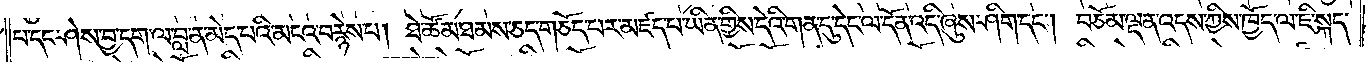པ་དང་ཤེས་བྱ་དག་ལ་བླ་ན་མེད་པའི་མངའ་བརྙེས་པ། ཐེ་ཚོམ་ཐམས་ཅད་གཅོད་པར་མཛད་པ་ཡིན་གྱིས་དེའི་གན་དུ་དེང་ལ་དོན་འདི་ཞུས་ཤིག་དང༌། བཅོམ་ལྡན་འདས་ཀྱིས་ཁྱོད་ལ་ཇི་སྐད་
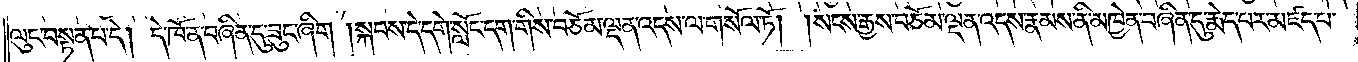ལུང་བསྟན་པ་དེ། དེ་ཁོ་ན་བཞིན་དུ་ཟུང་ཞིག །སྐབས་དེ་དགེ་སློང་དག་གིས་བཅོམ་ལྡན་འདས་ལ་གསོལ་ཏོ། །སངས་རྒྱས་བཅོམ་ལྡན་འདས་རྣམས་ནི་མཁྱེན་བཞིན་དུ་རྨེད་པར་མཛད་པ་
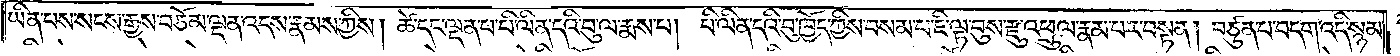ཡིན་པས་སངས་རྒྱས་བཅོམ་ལྡན་འདས་རྣམས་ཀྱིས། ཚེ་དང་ལྡན་པ་པི་ལིན་དའི་བུ་ལ་རྨས་པ། པི་ལིན་དའི་བུ་ཁྱོད་ཀྱིས་བསམ་པ་ཇི་ལྟ་བུས་རྫུ་འཕྲུལ་རྣམ་པར་བསྟན། བཙུན་པ་བདག་འདི་སྙམ་
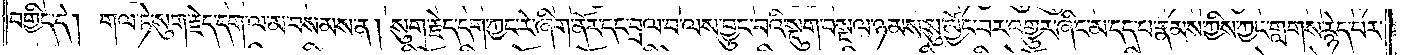བགྱིད་དེ། གལ་ཏེ་སུག་རྗེད་དག་ལ་མ་བསམས་ན། སུག་རྗེད་དག་ཀྱང་རེ་ཞིག་ནོར་དང་བྲལ་བ་ལས་བྱུང་བའི་སྡུག་བསྔལ་ཉམས་སུ་མྱོང་བར་འགྱུར་ཞིང་མ་དད་པ་རྣམས་ཀྱིས་ཀྱང་གླགས་རྙེད་པར་
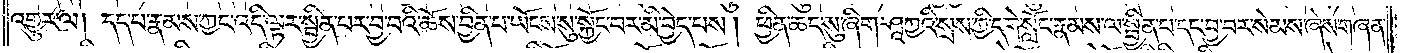འགྱུར་ལ། དད་པ་རྣམས་ཀྱང་འདི་ལྟར་སྦྱིན་པར་བྱ་བའི་ཆོས་བྱིན་པ་ཡོངས་སུ་སྐྱོང་བར་མི་བྱེད་པས། ཕྱིན་ཆད་སུ་ཞིག་ཤཱཀྱའི་སྲས་ཀྱི་དགེ་སློང་རྣམས་ལ་སྦྱིན་པ་དང་བྱ་བར་སེམས་ཞེས་གཞན་
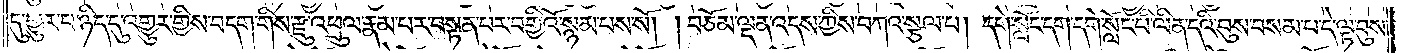དུ་གྱུར་པ་ཉིད་དུ་འགྱུར་གྱིས་བདག་གིས་རྫུ་འཕྲུལ་རྣམ་པར་བསྟན་པར་བགྱིའོ་སྙམ་པས་སོ། །བཅོམ་ལྡན་འདས་ཀྱིས་བཀའ་སྩལ་པ། དགེ་སློང་དག་དགེ་སློང་པི་ལིན་དའི་བུས་བསམ་པ་དེ་ལྟ་བུས་
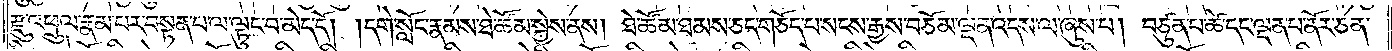རྫུ་འཕྲུལ་རྣམ་པར་བསྟན་པ་ལ་ལྟུང་བ་མེད་དོ། །དགེ་སློང་རྣམས་ཐེ་ཚོམ་སྐྱེས་ནས། ཐེ་ཚོམ་ཐམས་ཅད་གཅོད་པ་སངས་རྒྱས་བཅོམ་ལྡན་འདས་ལ་ཞུས་པ། བཙུན་པ་ཚེ་དང་ལྡན་པ་ནོར་ཅན་
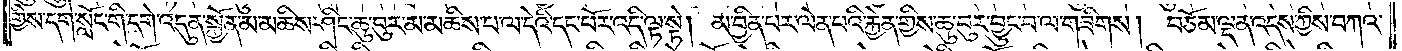གྱིས་དགེ་སློང་གི་དགེ་འདུན་སྐྱོན་མ་མཆིས་ཤིང་ཆུ་བུར་མ་མཆིས་པ་ལ་དེའི་དང་པོར་འདི་ལྟ་སྟེ། མ་བྱིན་པར་ལེན་པའི་རྐྱེན་གྱིས་ཆུ་བུར་བྱུང་བ་ལ་གཟིགས། བཅོམ་ལྡན་འདས་ཀྱིས་བཀའ་
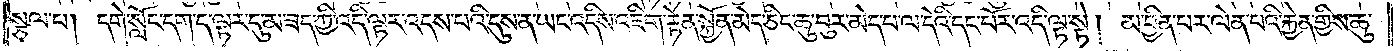སྩལ་པ། དགེ་སློང་དག་ད་ལྟར་དུ་མ་ཟད་ཀྱི་འདི་ལྟར་འདས་པའི་དུས་ན་ཡང་འདིས་འཇིག་རྟེན་སྐྱོན་མེད་ཅིང་ཆུ་བུར་མེད་པ་ལ་དེའི་དང་པོར་འདི་ལྟ་སྟེ། མ་བྱིན་པར་ལེན་པའི་རྐྱེན་གྱིས་ཆུ་
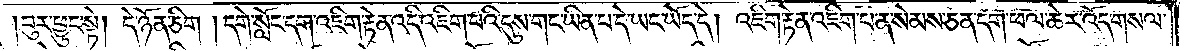བུར་ཕྱུང་སྟེ། དེ་ཉོན་ཅིག །དགེ་སློང་དག་འཇིག་རྟེན་འདི་འཇིག་པའི་དུས་གང་ཡིན་པ་དེ་ཡང་ཡོད་དེ། འཇིག་རྟེན་འཇིག་པ་ན་སེམས་ཅན་དག་ཕལ་ཆེར་འོད་གསལ་
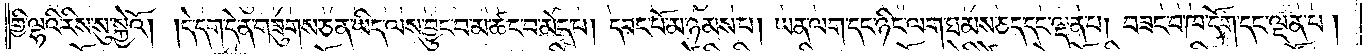གྱི་ལྷའི་རིས་སུ་སྐྱེའོ། །དེ་དག་དེ་ན་གཟུགས་ཅན་ཡིད་ལས་བྱུང་བ་མ་ཚང་བ་མེད་པ། དབང་པོ་མ་ཉམས་པ། ཡན་ལག་དང་ཉིང་ལག་ཐམས་ཅད་དང་ལྡན་པ། བཟང་བ་ཁ་དོག་དང་ལྡན་པ།
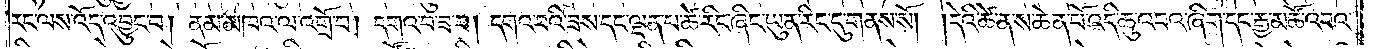རང་ལས་འོད་འབྱུང་བ། ནམ་མཁའ་ལ་འགྲོ་བ། དགའ་བ་ཟ་བ། དགའ་བའི་ཟས་དང་ལྡན་པ་ཚེ་རིང་ཞིང་ཡུན་རིང་དུ་གནས་སོ། །དེའི་ཚེ་ནས་ཆེན་པོ་འདི་ཆུ་འབའ་ཞིག་དང་རྒྱ་མཚོ་འབའ་
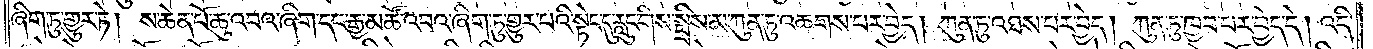ཞིག་ཏུ་གྱུར་ཏེ། ས་ཆེན་པོ་ཆུ་འབའ་ཞིག་དང་རྒྱ་མཚོ་འབའ་ཞིག་ཏུ་གྱུར་པའི་སྟེང་དུ་རླུང་གིས་སྤྲིས་མ་ཀུན་ཏུ་འཆགས་པར་བྱེད། ཀུན་ཏུ་འཐས་པར་བྱེད། ཀུན་ཏུ་ཁྱབ་པར་བྱེད་དེ། འདི་
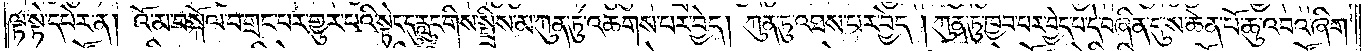ལྟ་སྟེ་དཔེར་ན། འོ་མ་བསྐོལ་བ་གྲང་བར་གྱུར་པའི་སྟེང་དུ་རླུང་གིས་སྤྲིས་མ་ཀུན་ཏུ་འཆགས་པར་བྱེད། ཀུན་ཏུ་འཐས་པར་བྱེད། ཀུན་ཏུ་ཁྱབ་པར་བྱེད་པ་དེ་བཞིན་དུ་ས་ཆེན་པོ་ཆུ་འབའ་ཞིག་
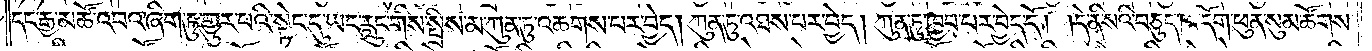དང་རྒྱ་མཚོ་འབའ་ཞིག་ཏུ་གྱུར་པའི་སྟེང་དུ་ཡང་རླུང་གིས་སྤྲིས་མ་ཀུན་ཏུ་འཆགས་པར་བྱེད། ཀུན་ཏུ་འཐས་པར་བྱེད། ཀུན་ཏུ་ཁྱབ་པར་བྱེད་དོ། །དེ་ནི་སའི་བཅུད་ཁ་དོག་ཕུན་སུམ་ཚོགས་
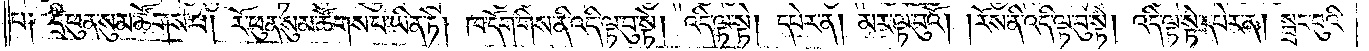པ༑ དྲི་ཕུན་སུམ་ཚོགས་པ། རོ་ཕུན་སུམ་ཚོགས་པ་ཡིན་ཏེ། ཁ་དོག་གིས་ནི་འདི་ལྟ་བུ་སྟེ། འདི་ལྟ་སྟེ། དཔེར་ན། མར་ལྟ་བུའོ། །རོས་ནི་འདི་ལྟ་བུ་སྟེ། འདི་ལྟ་སྟེ་དཔེར་ན། སྦྲང་བུའི་
